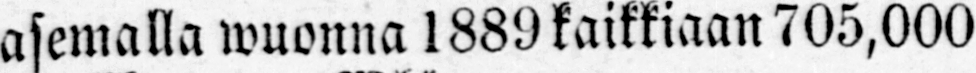asemalla wuonna 1889 kaikkiaan 705,000
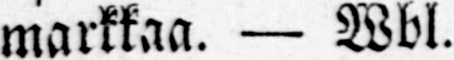markkaa. — Wbl.
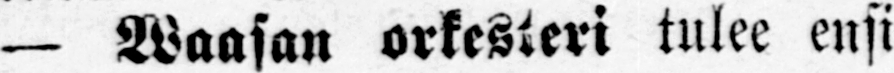— Waasan orkesteri tulee ensi
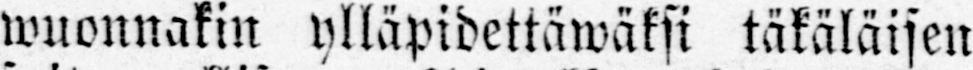wuonnakin ylläpidettäwäksi täkäläisen
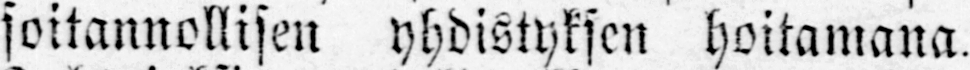soitannollisen yhdistyksen hoitamana.
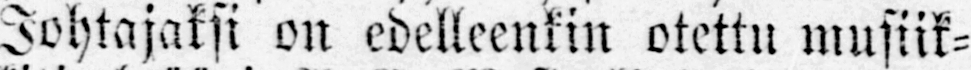Johtajaksi on edelleenkin otettu musiik-
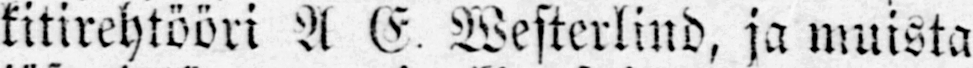kitirehtööri A. E. Westerlind, ja muista
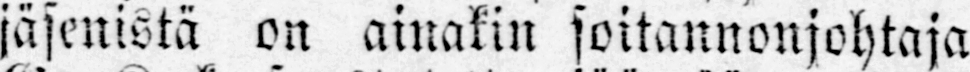jäsenistä on ainakin soitannonjohtaja
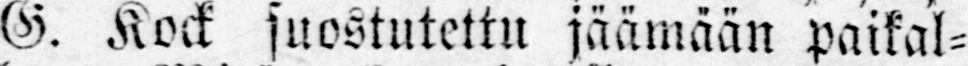G. Kock suostutettu jäämään paikal-
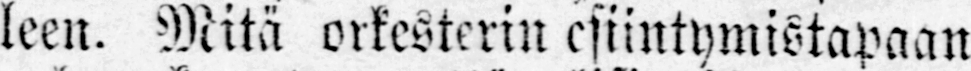leen. Mitä orkesterin esiintymistapaan
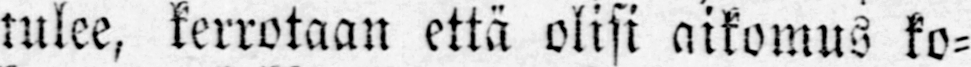tulee, kerrotaan että olisi aikomus ko-
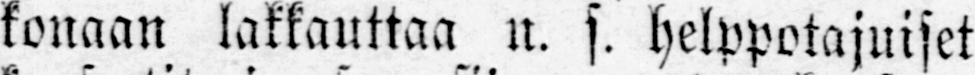konaan lakkauttaa n. s. helppotajuiset
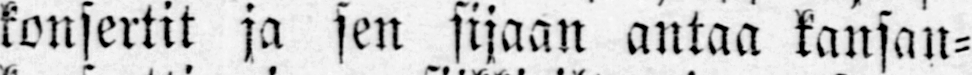konsertit ja sen sijaan antaa kansan-
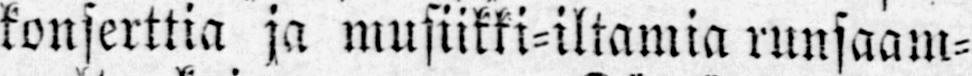konserttia ja musiikki-iltamia runsaam-
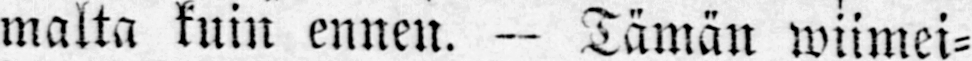malta kuin ennen. — Tämän wiimei-
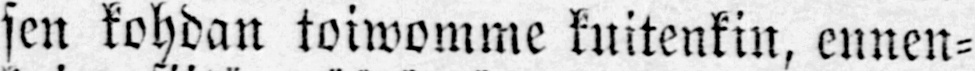sen kohdan toiwomme kuitenkin, ennen-
